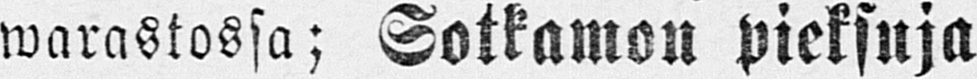warastossa; Sotkamon pieksuja
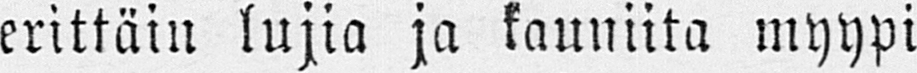erittäin lujia ja kauniita myypi
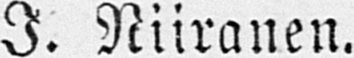I. Niiranen.
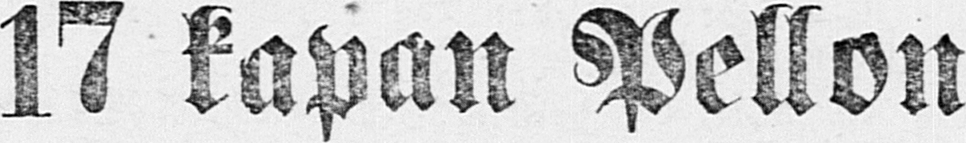17 kapan Pellon
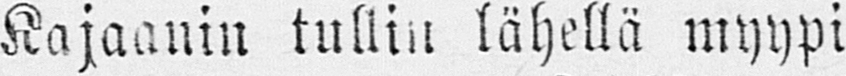Kajaanin tullin lähellä myypi
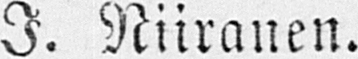J. Niiranen.
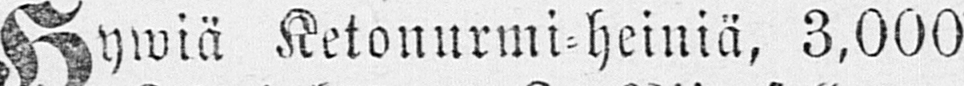Hywiä Ketonurmi-heiniä, 3,000
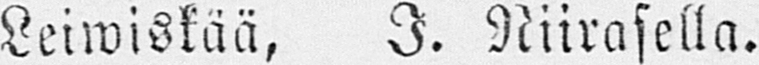Leiwiskää, J. Niirasella.
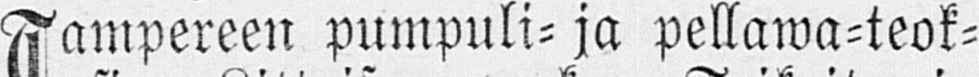Tampereen pumpuli- ja pellawa-teok-
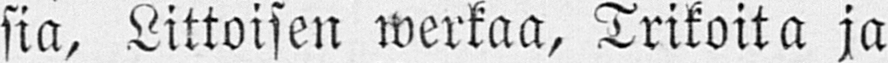sia, Littoisen werkaa, Trikoita ja
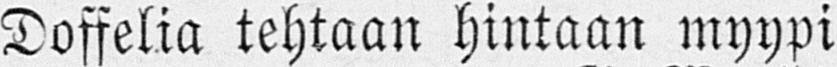Doffelia tehtaan hintaan myypi
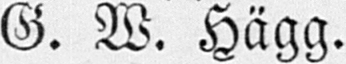G. W. Hägg.
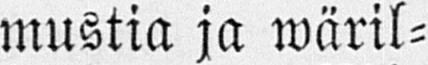Leninkikankaita, ja wäril-
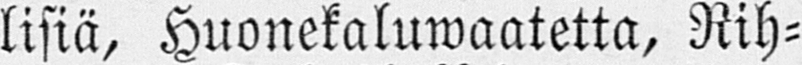lisiä, Huonekaluwaatetta, Rih-
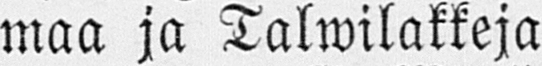maa ja Talwilakkeja
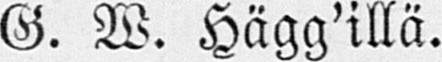G. W. Hägg'illä.
